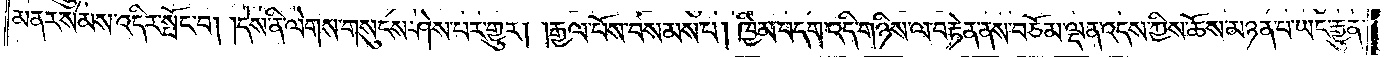མནར་སེམས་འདིར་སྤོང་བ། །དེས་ནི་ལེགས་གསུངས་ཤེས་པར་གྱུར། །རྒྱལ་པོས་བསམས་པ། ཁྱིམ་བདག་འདི་གཉིས་ལ་བརྟེན་ནས་བཅོམ་ལྡན་འདས་ཀྱིས་ཆོས་མཉན་པ་ཡང་རྒྱུན་
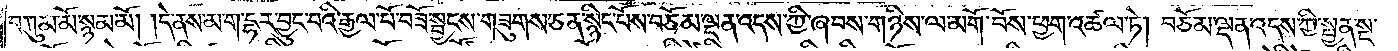བཀུམ་མོ་སྙམ་མོ། །དེ་ནས་མ་ག་དྷར་བྱུང་བའི་རྒྱལ་པོ་བཟོ་སྦྱངས་གཟུགས་ཅན་སྙིང་པོས་བཅོམ་ལྡན་འདས་ཀྱི་ཞབས་གཉིས་ལ་མགོ་བོས་ཕྱག་འཚལ་ཏེ། བཅོམ་ལྡན་འདས་ཀྱི་སྤྱན་སྔ་
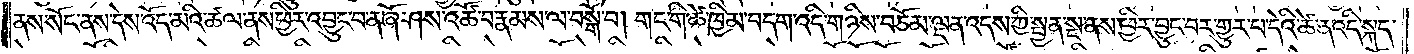ནས་སོང་ནས་དེས་འོད་མའི་ཚལ་ནས་ཕྱིར་འབྱུང་བ་ན་ཞོ་ཤས་འཚོ་བ་རྣམས་ལ་བསྒོ་བ། གང་གི་ཚེ་ཁྱིམ་བདག་འདི་གཉིས་བཅོམ་ལྡན་འདས་ཀྱི་སྤྱན་སྔ་ནས་ཕྱིར་བྱུང་བར་གྱུར་པ་དེའི་ཚེ་ན་འདི་སྐད་
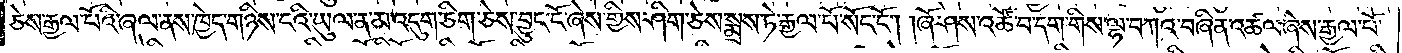ཅེས་རྒྱལ་པོའི་ཞལ་ནས་ཁྱེད་གཉིས་ངའི་ཡུལ་ན་མ་འདུག་ཅིག་ཅེས་བྱུང་ངོ་ཞེས་གྱིས་ཤིག་ཅེས་སྨྲས་ཏེ་རྒྱལ་པོ་སོང་ངོ༌། །ཞོ་ཤས་འཚོ་བ་དག་གིས་ལྷ་བཀའ་བཞིན་འཚལ་ཞེས་རྒྱལ་པོ་
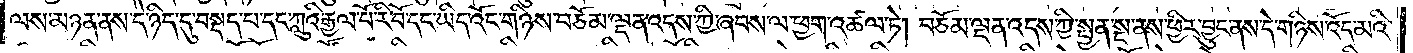ལས་མཉན་ནས་དེ་ཉིད་དུ་བསྡད་པ་དང་ཀླུའི་རྒྱལ་པོ་རི་བོ་དང་ཡིད་འོང་གཉིས་བཅོམ་ལྡན་འདས་ཀྱི་ཞབས་ལ་ཕྱག་འཚལ་ཏེ། བཅོམ་ལྡན་འདས་ཀྱི་སྤྱན་སྔ་ནས་ཕྱིར་བྱུང་ནས་དེ་གཉིས་འོད་མའི་
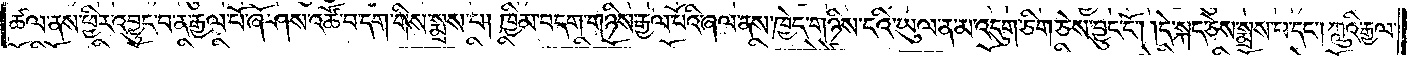ཚལ་ནས་ཕྱིར་འབྱུང་བ་ན་རྒྱལ་པོ་ཞོ་ཤས་འཚོ་བ་དག་གིས་སྨྲས་པ། ཁྱིམ་བདག་གཉིས་རྒྱལ་པོའི་ཞལ་ནས་ཁྱེད་གཉིས་ངའི་ཡུལ་ན་མ་འདུག་ཅིག་ཅེས་བྱུང་ངོ༌། །དེ་སྐད་ཅེས་སྨྲས་པ་དང༌། ཀླུའི་རྒྱལ་
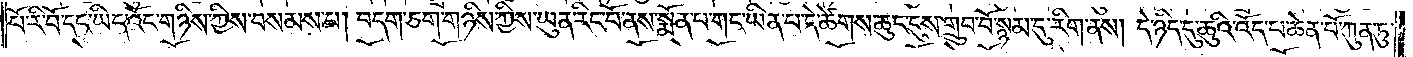པོ་རི་བོ་དང་ཡིད་འོང་གཉིས་ཀྱིས་བསམས་པ། བདག་ཅག་གཉིས་ཀྱིས་ཡུན་རིང་པོ་ནས་སྨོན་པ་གང་ཡིན་པ་དེ་ཚེགས་ཆུང་ངུས་གྲུབ་བོ་སྙམ་དུ་རིག་ནས། དེ་ཉིད་དུ་ཆུའི་འོད་པ་ཆེན་པོ་ཀུན་ཏུ་
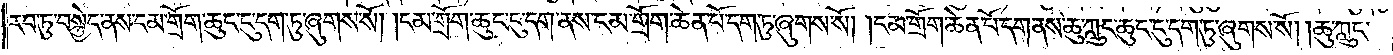རབ་ཏུ་བསྐྱེད་ནས་ངམ་གྲོག་ཆུང་ངུ་དག་ཏུ་ཞུགས་སོ། །ངམ་གྲོག་ཆུང་ངུ་དག་ནས་ངམ་གྲོག་ཆེན་པོ་དག་ཏུ་ཞུགས་སོ། །ངམ་གྲོག་ཆེན་པོ་དག་ནས་ཆུ་ཀླུང་ཆུང་དུ་དག་ཏུ་ཞུགས་སོ། །ཆུ་ཀླུང་
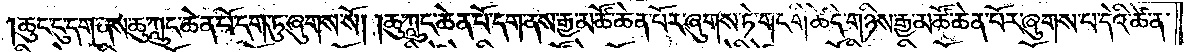ཆུང་ངུ་དག་ནས་ཆུ་ཀླུང་ཆེན་པོ་དག་ཏུ་ཞུགས་སོ། །ཆུ་ཀླུང་ཆེན་པོ་དག་ནས་རྒྱ་མཚོ་ཆེན་པོར་ཞུགས་ཏེ་གང་གི་ཚེ་དེ་གཉིས་རྒྱ་མཚོ་ཆེན་པོར་ཞུགས་པ་དེའི་ཚེ་ན་
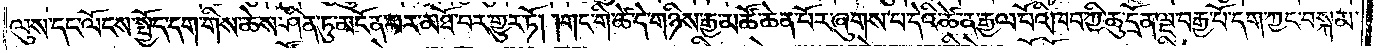ལུས་དང་ལོངས་སྤྱོད་དག་གིས་ཆེས་ཤིན་ཏུ་མངོན་པར་མཐོ་བར་གྱུར་ཏོ། །གང་གི་ཚེ་དེ་གཉིས་རྒྱ་མཚོ་ཆེན་པོར་ཞུགས་པ་དེའི་ཚེ་ན་རྒྱལ་པོའི་ཁབ་ཀྱི་ཆུ་དྲོན་ལྔ་བརྒྱ་པོ་དག་ཀྱང་བསྐམ་
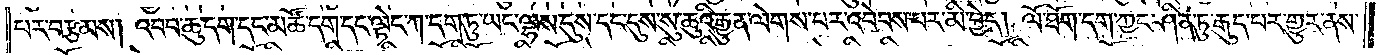པར་བརྩམས། འབབ་ཆུ་དག་དང་མཚོ་དག་དང་ལྟེང་ཀ་དག་ཏུ་ཡང་ལྷས་དུས་དང་དུས་སུ་ཆུའི་རྒྱུན་ལེགས་པར་འབེབས་པར་མི་བྱེད། ལོ་ཐོག་དག་ཀྱང་ཤིན་ཏུ་རྒུད་པར་གྱུར་ནས་
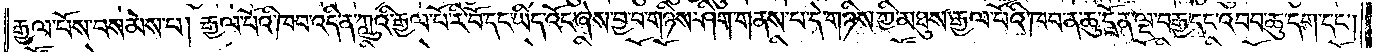རྒྱལ་པོས་བསམས་པ། རྒྱལ་པོའི་ཁབ་འདི་ན་ཀླུའི་རྒྱལ་པོ་རི་བོ་དང་ཡིད་འོང་ཞེས་བྱ་བ་གཉིས་ཤིག་གནས་པ་དེ་གཉིས་ཀྱི་མཐུས་རྒྱལ་པོའི་ཁབ་ན་ཆུ་དྲོན་ལྔ་བརྒྱ་དང་འབབ་ཆུ་དག་དང༌།
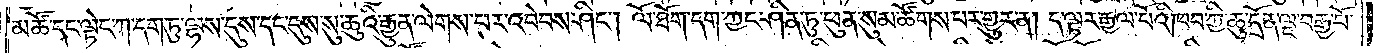མཚོ་དང་ལྟེང་ཀ་དག་ཏུ་ལྷས་དུས་དང་དུས་སུ་ཆུའི་རྒྱུན་ལེགས་པར་འབེབས་ཤིང༌། ལོ་ཐོག་དག་ཀྱང་ཤིན་ཏུ་ཕུན་སུམ་ཚོགས་པར་གྱུར་ན། ད་ལྟར་རྒྱལ་པོའི་ཁབ་ཀྱི་ཆུ་དྲོན་ལྔ་བརྒྱ་པོ་
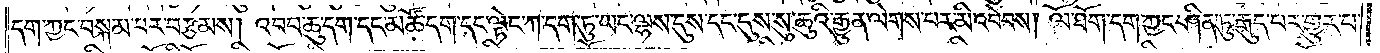དག་ཀྱང་བསྐམ་པར་བརྩམས། འབབ་ཆུ་དག་དང་མཚོ་དག་དང་ལྟེང་ཀ་དག་ཏུ་ཡང་ལྟས་དུས་དང་དུས་སུ་ཆུའི་རྒྱུན་ལེགས་པར་མི་འབེབས། ལོ་ཐོག་དག་ཀྱང་ཤིན་ཏུ་རྒུད་པར་གྱུར་པ་
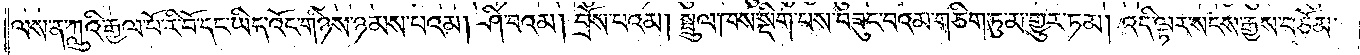ལས་ན་ཀླུའི་རྒྱལ་པོ་རི་བོ་དང་ཡིད་འོང་གཉིས་ཉམས་པའམ། ཤི་བའམ། བྲོས་པའམ། སྤྲུལ་ཁས་སྡིག་པས་བཟུང་བའམ་གཅིག་ཏུ་མ་གྱུར་ཏམ། འདི་ལྟར་སངས་རྒྱས་བཅོམ་
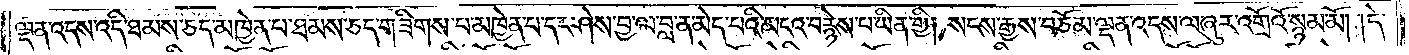ལྡན་འདས་འདི་ཐམས་ཅད་མཁྱེན་པ་ཐམས་ཅད་གཟིགས་པ་མཁྱེན་པ་དང་ཤེས་བྱ་ལ་བླ་ན་མེད་པའི་མངའ་བརྙེས་པ་ཡིན་གྱི། སངས་རྒྱས་བཅོམ་ལྡན་འདས་ལ་ཞུར་འགྲོའོ་སྙམ་མོ། །དེ་
